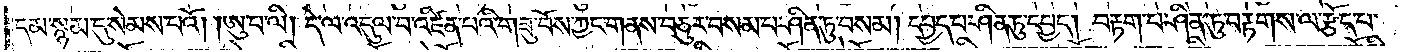དམ་སྙམ་དུ་སེམས་པའོ། །ཨུ་པ་ལི། དེ་ལ་འདུལ་བ་འཛིན་པའི་གཟུ་བོས་ཀྱང་གནས་བཅུར་བསམ་པ་ཤིན་ཏུ་བསམ། དཔྱད་པ་ཤིན་ཏུ་དཔྱད། བརྟག་པ་ཤིན་ཏུ་བརྟགས་ལ་རྩོད་པ་
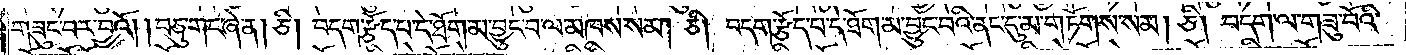གཟུང་བར་བྱའོ། །བཅུ་གང་ཞེ་ན། ཅི། བདག་རྩོད་པ་དེ་ཐོག་མ་བྱུང་བ་ལ་མཁས་སམ། ཅི། བདག་རྩོད་པ་དེ་ཐོག་མ་བྱུང་བའི་ནང་དུ་མ་གཏོགས་སམ། ཅི། བདག་ལ་གཟུ་བོའི་
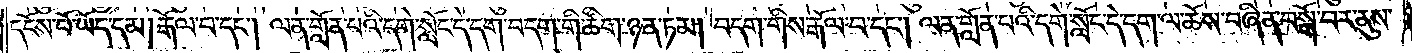དངོས་པོ་ཡོད་དམ། རྒོལ་བ་དང༌། ལན་གློན་པའི་དགེ་སློང་དེ་དག་བདག་གི་ཚིག་ཉན་ཏམ། བདག་གིས་རྒོལ་བ་དང༌། ལན་གློན་པའི་དགེ་སློང་དེ་དག་ལ་ཆོས་བཞིན་བསྒོ་བར་ནུས་
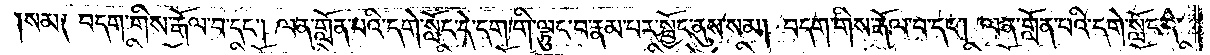སམ༑ བདག་གིས་རྒོལ་བ་དང༌། ལན་གློན་པའི་དགེ་སློང་དེ་དག་གི་ལྟུང་བ་རྣམ་པར་སྦྱོང་ནུས་སམ། བདག་གིས་རྒོལ་བ་དང༌། ལན་གློན་པའི་དགེ་སློང་དེ་
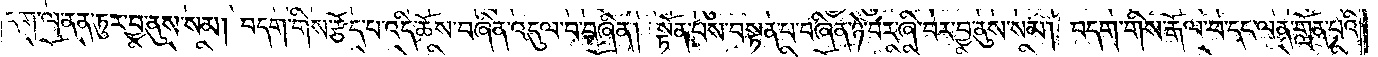དག་ལ་ནན་ཏུར་བྱ་ནུས་སམ། བདག་གིས་རྩོད་པ་འདི་ཆོས་བཞིན་འདུལ་བ་བཞིན། སྟོན་པས་བསྟན་པ་བཞིན་ཉེ་བར་ཞི་བར་བྱ་ནུས་སམ། བདག་གིས་རྒོལ་བ་དང་ལན་གློན་པའི་
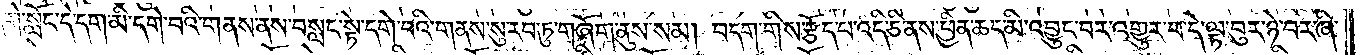དགེ་སློང་དེ་དག་མི་དགེ་བའི་གནས་ནས་བསླང་སྟེ་དགེ་བའི་གནས་སུ་རབ་ཏུ་གཞོག་ནུས་སམ། བདག་གིས་རྩོད་པ་འདི་ཅི་ནས་ཕྱིན་ཆད་མི་འབྱུང་བར་འགྱུར་བ་དེ་ལྟ་བུར་ཉེ་བར་ཞི་
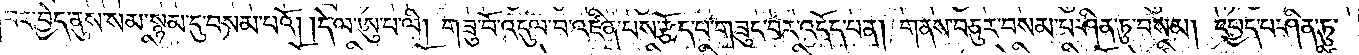བར་བྱེད་ནུས་སམ་སྙམ་དུ་བསམ་པའོ། དེ་ལ་ཨུ་པ་ལི། གཟུ་བོ་འདུལ་བ་འཛིན་པས་རྩོད་པ་གཟུང་བར་འདོད་པ་ན། གནས་བཅུར་བསམ་པ་ཤིན་ཏུ་བསམ། དཔྱད་པ་ཤིན་ཏུ་
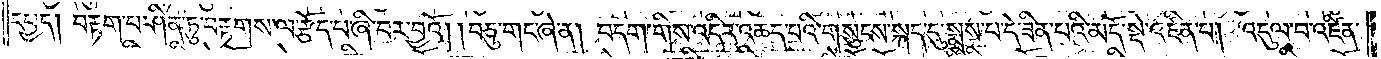དཔྱད། བརྟག་པ་ཤིན་ཏུ་བརྟགས་ལ་རྩོད་པ་ཞི་བར་བྱའོ། །བཅུ་གང་ཞེ་ན། བདག་གིས་འདིར་འཆད་པའི་གསུངས་སྐད་དུ་སྨྲས་པ་དེ་ཟིན་པའི་མདོ་སྡེ་འཛིན་པ། འདུལ་བ་འཛིན་
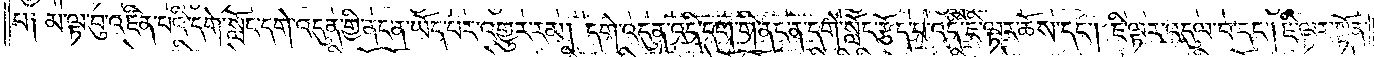པ༑ མ་ལྟ་བུ་འཛིན་པའི་དགེ་སློང་དགེ་འདུན་གྱི་ནང་ན་ཡོད་པར་འགྱུར་རམ། དགེ་འདུན་འདི་དག་གི་ནང་ན་དགེ་སློང་རྩོད་པ་འདི་ཇི་ལྟར་ཆོས་དང༌། ཇི་ལྟར་འདུལ་བ་དང༌། ཇི་ལྟར་སྟོན་
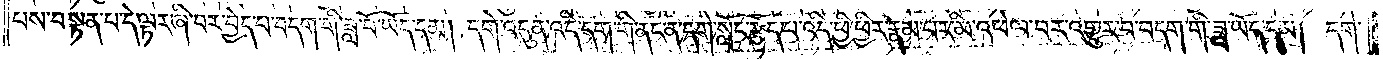པས་བསྟན་པ་དེ་ལྟར་ཞི་བར་བྱེད་པ་བདག་གི་ཟླ་བོ་ཡོད་དམ། དགེ་འདུན་འདི་དག་གི་ནང་ན་དགེ་སློང་རྩོད་པ་འདི་ཕྱི་ཕྱིར་རྣམ་པར་མི་འཕེལ་བར་འགྱུར་བ་བདག་གི་ཟླ་ཡོད་དམ། དགེ་
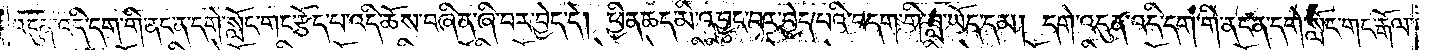འདུན་འདི་དག་གི་ནང་ན་དགེ་སློང་གང་རྩོད་པ་འདི་ཆོས་བཞིན་ཞི་བར་བྱེད་དེ། ཕྱིན་ཆད་མི་འབྱུང་བར་བྱེད་པའི་བདག་གི་ཟླ་ཡོད་དམ། དགེ་འདུན་འདི་དག་གི་ནང་ན་དགེ་སློང་གང་རྒོལ་
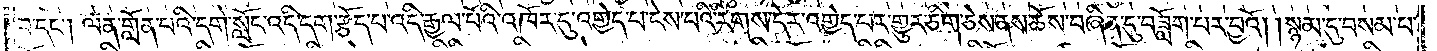བ་དང༌། ལན་གློན་པའི་དགེ་སློང་འདི་དག་རྩོད་པ་འདི་རྒྱལ་པོའི་འཁོར་དུ་འགྱེད་པ་ངེས་པའི་རིགས་དེར་འགྱེད་པར་གྱུར་ཅིག་ཅེས་ནས་ཆོས་བཞིན་དུ་བཟློག་པར་བྱའོ། །སྙམ་དུ་བསམ་པ་
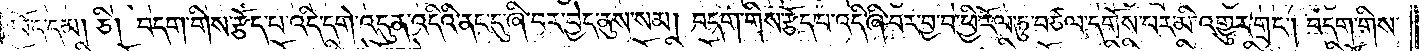ཡོད་དམ། ཅི། བདག་གིས་རྩོད་པ་འདི་དགེ་འདུན་འདིའི་ནང་དུ་ཞི་བར་བྱེད་ནུས་སམ། བདག་གིས་རྩོད་པ་འདི་ཞི་བར་བྱ་བ་ཕྱི་རོལ་ཏུ་བཙལ་དགོས་པར་མི་འགྱུར་གྲང༌། བདག་གིས་
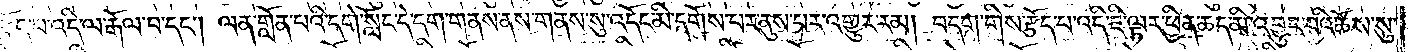རྩོད་པ་འདི་ལ་རྒོལ་བ་དང༌། ལན་གློན་པའི་དགེ་སློང་དེ་དག་གནས་ནས་གནས་སུ་འདོང་མི་དགོས་པར་ནུས་པར་འགྱུར་རམ། བདག་གིས་རྩོད་པ་འདི་ཇི་ལྟར་ཕྱིན་ཆད་མི་འབྱུང་བའི་ཆོས་སུ་
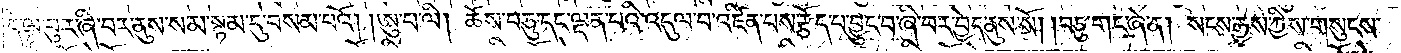དེ་ལྟ་བུར་ཞི་བར་ནུས་སམ་སྙམ་དུ་བསམ་པའོ། །ཨུ་པ་ལི། ཆོས་བཅུ་དང་ལྡན་པའི་འདུལ་བ་འཛིན་པས་རྩོད་པ་བྱུང་བ་ཞི་བར་བྱེད་ནུས་སོ། །བཅུ་གང་ཞེ་ན། སངས་རྒྱས་ཀྱིས་གསུངས་
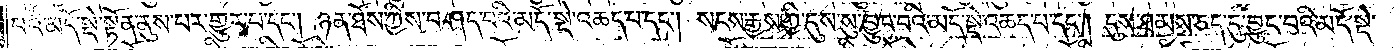པའི་མདོ་སྡེ་སྟོན་ནུས་པར་གྱུར་པ་དང༌། ཉན་ཐོས་ཀྱིས་བཤད་པའི་མདོ་སྡེ་འཆད་པ་དང༌། སངས་རྒྱས་ཀྱི་དུས་སུ་བྱུང་བའི་མདོ་སྡེ་འཆད་པ་དང༌། དུས་ཐམས་ཅད་དུ་བྱུང་བའི་མདོ་སྡེ་
